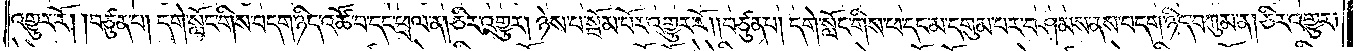འགྱུར་རོ། །བཙུན་པ། དགེ་སློང་གིས་བདག་ཉིད་འཚོ་བ་དང་ཕྲལ་ན། ཅིར་འགྱུར། ཉེས་པ་སྦོམ་པོར་འགྱུར་རོ། །བཙུན་པ། དགེ་སློང་གིས་ཕ་དང་མ་དགུམ་པར་བཤམས་ནས་བདག་ཉིད་བཀུམ་ན། ཅིར་འགྱུར།
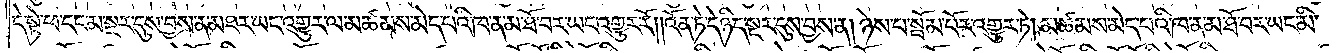དེ་སྟེ་ཕ་དང་མ་སྔར་དུས་བྱས་ན་མཐར་ཡང་འགྱུར་ལ་མཚམས་མེད་པའི་ཁ་ན་མ་ཐོ་བར་ཡང་འགྱུར་རོ། །འོན་ཏེ་དེ་ཉིད་སྔར་དུས་བྱས་ན། ཉེས་པ་སྦོམ་པོར་འགྱུར་ཏེ། མཚམས་མེད་པའི་ཁ་ན་མ་ཐོ་བར་ཡང་མི་
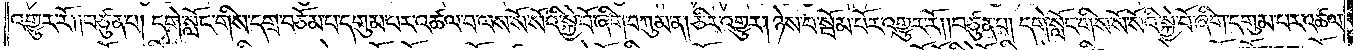འགྱུར་རོ། །བཙུན་པ། དགེ་སློང་གིས་དགྲ་བཅོམ་པ་དགུམ་པར་འཚལ་བ་ལས་སོ་སོའི་སྐྱེ་བོ་ཞིག་བཀུམ་ན། ཅིར་འགྱུར། ཉེས་པ་སྦོམ་པོར་འགྱུར་རོ། །བཙུན་པ། དགེ་སློང་གིས་སོ་སོའི་སྐྱེ་བོ་ཞིག་དགུམ་པར་འཚལ་
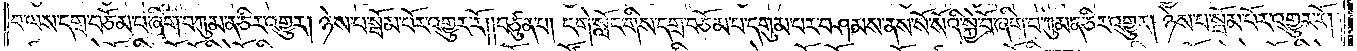བ་ལས་དགྲ་བཅོམ་པ་ཞིག་བཀུམ་ན་ཅིར་འགྱུར། ཉེས་པ་སྦོམ་པོར་འགྱུར་རོ། །བཙུན་པ། དགེ་སློང་གིས་དགྲ་བཅོམ་པ་དགུམ་པར་བཤམས་ནས་སོ་སོའི་སྐྱེ་བོ་ཞིག་བཀུམ་ན་ཅིར་འགྱུར། ཉེས་པ་སྦོམ་པོར་འགྱུར་རོ། །
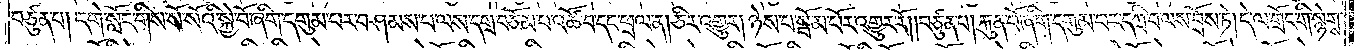བཙུན་པ། དགེ་སློང་གིས་སོ་སོའི་སྐྱེ་བོ་ཞིག་དགུམ་པར་བཤམས་པ་ལས་དགྲ་བཅོམ་པ་འཚོ་བ་དང་ཕྲལ་ན། ཅིར་འགྱུར། ཉེས་པ་སྦོམ་པོར་འགྱུར་རོ། །བཙུན་པ། རྐུན་པོ་ཞིག་དགུམ་པར་དཀྲི་བ་ལས་བྲོས་ཏེ། དེ་ལ་གྲོང་གི་སྙེགས་
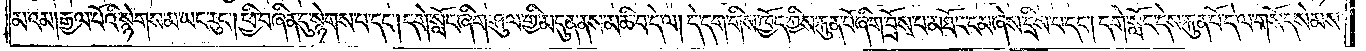མའམ། རྒྱལ་པོའི་སྙེགས་མ་ཡང་རུང༌། ཕྱི་བཞིན་དུ་སྙེགས་པ་དང༌། དགེ་སློང་ཞིག་ཤུལ་གྱི་མདུན་ནས་མཆི་བ་དེ་ལ། དེ་དག་གིས་ཁྱོད་ཀྱིས་རྐུན་པོ་ཞིག་བྲོས་པ་མཐོང་ངམ་ཞེས་དྲིས་པ་དང༌། དགེ་སློང་དེས་རྐུན་པོ་དེ་ལ་གསོད་སེམས་
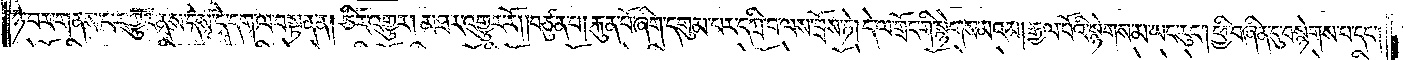ཉེ་བར་གནས་པར་གྱུར་ནས་དེས་དེ་དག་ལ་བསྟན་ན། ཅིར་འགྱུར། མཐར་འགྱུར་རོ། །བཙུན་པ། རྐུན་པོ་ཞིག་དགུམ་པར་དཀྲི་བ་ལས་བྲོས་ཏེ། དེ་ལ་གྲོང་གི་སྙེགས་མའམ། རྒྱལ་པོའི་སྙེགས་མ་ཡང་རུང༌། ཕྱི་བཞིན་དུ་བསྙེགས་པ་དང༌།
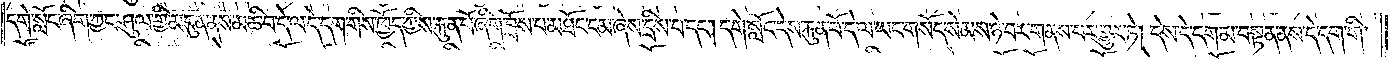དགེ་སློང་ཞིག་ཀྱང་ཤུལ་གྱི་མདུན་ནས་མཆི་བ་དེ་ལ་དེ་དག་གིས་ཁྱོད་ཀྱིས་རྐུན་པོ་ཞིག་བྲོས་པ་མཐོང་ངམ་ཞེས་དྲིས་པ་དང༌། དགེ་སློང་དེས་རྐུན་པོ་དེ་ལ་ཡང་གསོད་སེམས་ཉེ་བར་གནས་པར་གྱུར་ཏེ། དེས་དེ་དག་མ་བསྟན་ནས་དེ་དག་གི་
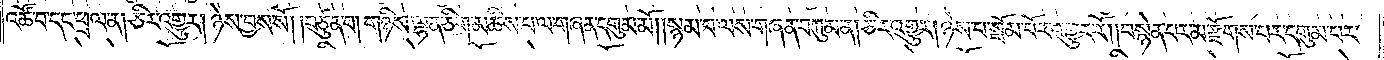འཚོ་བ་དང་ཕྲལ་ན། ཅིར་འགྱུར། ཉེས་བྱས་སོ། །བཙུན་པ། གཉིས་ལྷན་ཅིག་མཆིས་པ་ལ་གཞན་དགུམ་མོ། །སྙམ་པ་ལས་གཞན་བཀུམ་ན། ཅིར་འགྱུར། ཉེས་པ་སྦོམ་པོར་འགྱུར་རོ། །བསྙེན་པར་མ་རྫོགས་པར་དགུམ་པར་
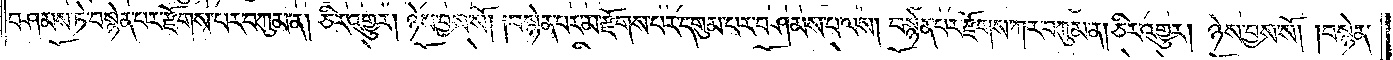བཤམས་ཏེ་བསྙེན་པར་རྫོགས་པར་བཀུམ་ན། ཅིར་འགྱུར། ཉེས་བྱས་སོ་།བསྙེན་པར་མ་རྫོགས་པར་དགུམ་པར་བཤམས་པ་ལས། བསྙེན་པར་རྫོགས་ཀར་བཀུམ་ན། ཅིར་འགྱུར། ཉེས་བྱས་སོ། །བསྙེན་
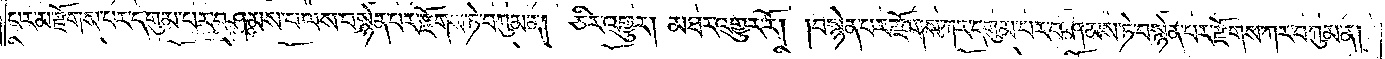པར་མ་རྫོགས་པར་དགུམ་པར་བཤམས་པ་ལས་བསྙེན་པར་རྫོགས་ཏེ་བཀུམ་ན། ཅིར་འགྱུར། མཐར་འགྱུར་རོ། །བསྙེན་པར་རྫོགས་ཀར་དགུམ་པར་བཤམས་ཏེ་བསྙེན་པར་རྫོགས་ཀར་བཀུམ་ན།
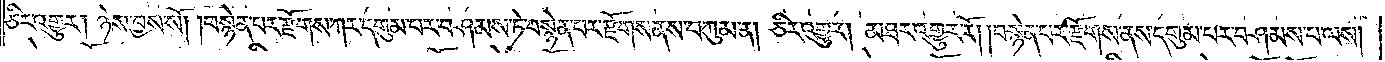ཅིར་འགྱུར། །ཉེས་བྱས་སོ། །བསྙེན་པར་རྫོགས་ཀར་དགུམ་པར་བཤམས་ཏེ་བསྙེན་པར་རྫོགས་ནས་བཀུམ་ན། ཅིར་འགྱུར། མཐར་འགྱུར་རོ། །བསྙེན་པར་རྫོགས་ནས་དགུམ་པར་བཤམས་པ་ལས།
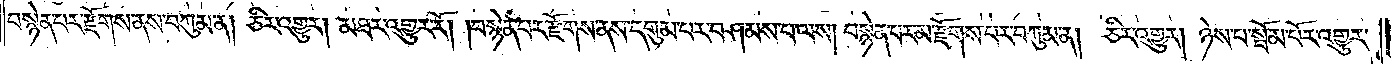བསྙེན་པར་རྫོགས་ནས་བཀུམ་ན། ཅིར་འགྱུར། མཐར་འགྱུར་རོ། །བསྙེན་པར་རྫོགས་ནས་དགུམ་པར་བཤམས་པ་ལས། བསྙེན་པར་མ་རྫོགས་པར་བཀུམ་ན། ཅིར་འགྱུར། ཉེས་པ་སྦོམ་པོར་འགྱུར་
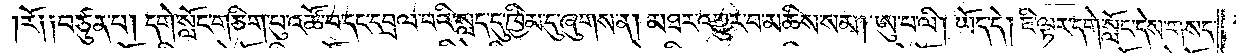།རོ༑ ༑བཙུན་པ། དགེ་སློང་གཅིག་པུ་འཚོ་བ་དང་དབྲལ་བའི་སླད་དུ་ཁྱིམ་དུ་ཞུགས་ན། མཐར་འགྱུར་བ་མཆིས་སམ། ཨུ་པ་ལི། ཡོད་དེ། ཇི་ལྟར་དགེ་སློང་དེས་གསད་
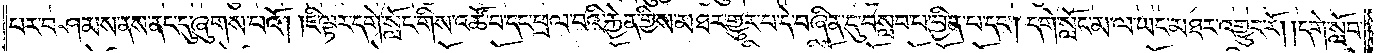པར་བཤམས་ནས་ནང་དུ་ཞུགས་པའོ། །ཇི་ལྟར་དགེ་སློང་གིས་འཚོ་བ་དང་ཕྲལ་བའི་རྐྱེན་གྱིས་མཐར་གྱུར་པ་དེ་བཞིན་དུ་བསླབ་པ་བྱིན་པ་དང༌། དགེ་སློང་མ་ལ་ཡང་མཐར་འགྱུར་རོ། །དགེ་སློབ་
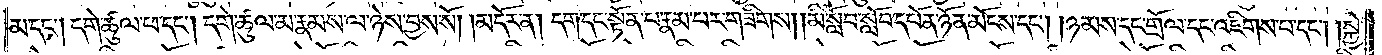མ་དང༌། དགེ་ཚུལ་ཕ་དང༌། དགེ་ཚུལ་མ་རྣམས་ལ་ཉེས་བྱས་སོ།    །མདོར་ན། དག་དང་སྟོན་པ་རྣམ་པར་གཟིགས། །མི་སློབ་སློབ་དཔོན་ཉོན་མོངས་དང༌། །ཉམས་དང་གྲོལ་དང་འཇིགས་པ་དང༌། སྐྱེ་
